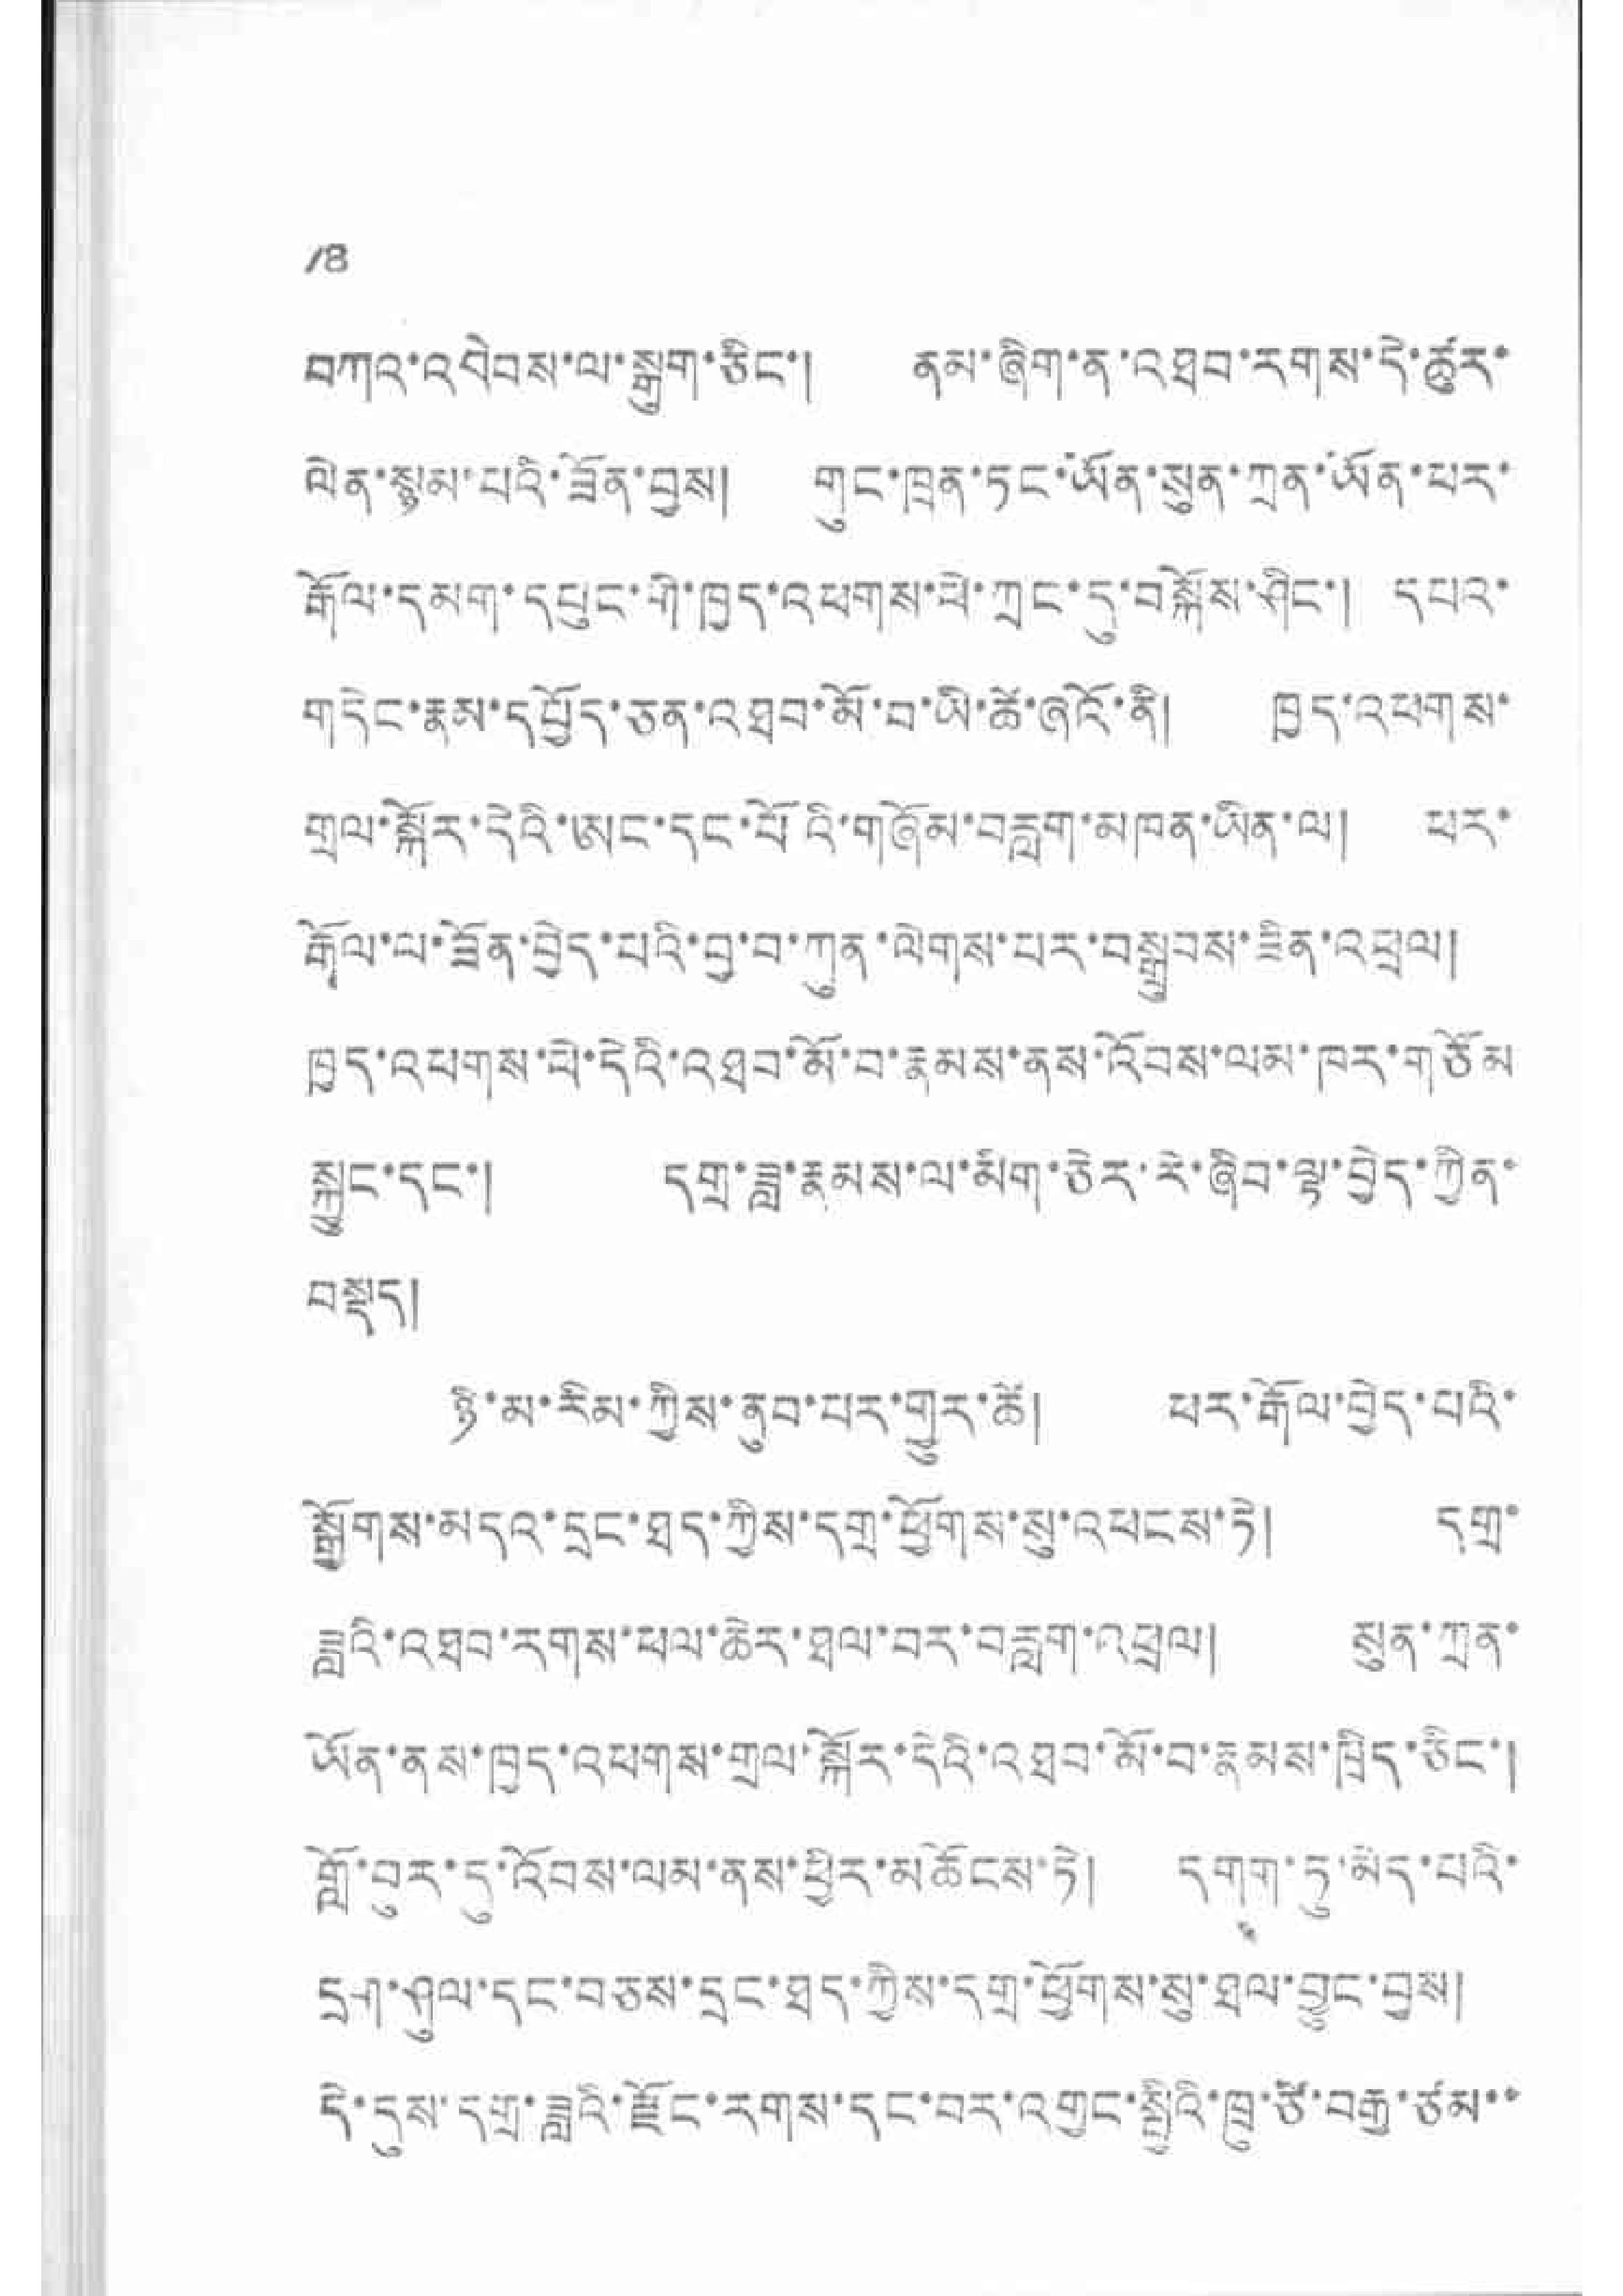18
བཀའ་འབེབས་ལ་སྒུག་ཅིང་། ནམ་ཞིག་ན་འཐབ་རགས་དེ་ཚུར་
ལེན་སྙམ་པའི་ཟོན་བྱས། གུང་ཁྲན་ཏང་ཡོན་སུན་ཀྲན་ཡོན་ཕར་
རྒོལ་དམག་དཔུང་གི་ཁྱད་འཕགས་ཕེ་ཀྲང་དུ་བསྐོས་ཤིང་། དཔའ་
གདེང་རྣམ་དཔྱོད་ཅན་འཐབ་མོ་བ་ཡི་ཚེ་ཞའོ་ནི། ཁྱར་འཕགས་
གྲལ་སྐོར་དེའི་ཨང་དང་པོའི་གཞོམ་བརླག་མཁན་ཡིན་ལ། ཕར་
རྒོལ་ལ་ཟོན་བྱེད་པའི་བྱ་བ་ཀུན་ལེགས་པར་བསྒྲུབས་ཟིན་འཕྲལ།
ཁྱད་འཕགས་ཕེ་དེའི་འཐབ་མོ་བ་རྣམས་ནས་འོབས་ལམ་ཁར་གཙོམ
སྐྱུང་དང་། དགྲ་ཟླ་རྣམས་ལ་མིག་ཅེར་རེ་ཞིབ་ལྟ་བྱེད་ཀྱིན་
བསྡད།
ཉི་མ་རིམ་ཀྱིས་ནུབ་པར་གྱུར་ཚེ། ཕར་རྒོལ་བྱེད་པའི་
སྒྱོགས་མདའ་དྲང་ཐད་ཀྱིས་དགྲ་ཕྱོགས་སུ་འཕངས་ཏེ། དགྲ་
ཟླའི་འཐབ་དགས་ཕལ་ཆེར་ཐལ་བར་བརླག་འཕྲལ། སུན་ཀྲན་
ཡོན་ནས་ཁྱད་འཕགས་གྲལ་སྐོར་དེའི་འཐབ་མོ་བ་རྣམས་ཁྲིད་ཅོང་།
གློ་བུར་དུ་འོབས་ལམ་ནས་ཕྱིར་མཆོངས་ཏེ། དགག་ཏུ་མད་པའི་
དྲག་ཤུལ་དང་བཅས་དྲང་ཐད་ཀྱིས་དགྲ་ཕྱོགས་སུ་ཐལ་བྱུང་བྱས།
དེ་དུས་དགྲ་ཟླའི་རྫོང་རགས་དང་བར་འགྱང་སྤྱིའི་ཁྲུ་ཙེ་བརྒྱ་ཙམ་་
